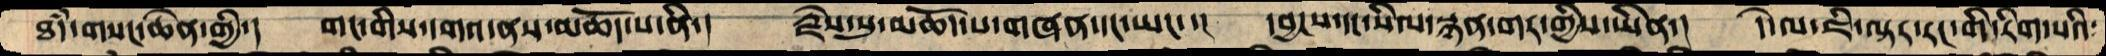ཐདཾ་གསང་ཆེན་གྱི་།  གང་གི་དགའ་ནས་མཆོད་པ་ནི་།  རྗེས་སུ་མཆོད་པ་གཞན་དང་ཡང་་།  དབྱངས་དང་སིལ་སྙན་གར་གྱིས་ཡིན་།  དེ་ལ་ཇི་ལྟར་རང་གི་རིག་པའི་
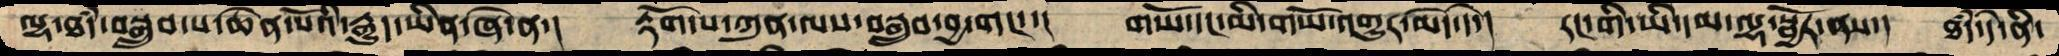ལྷ་ཐདཾ་བསྒྲུབ་པ་ཆེན་པོའི་རྒྱུད་ཡིན་ཞེ་ན་།  རྟོག་པ་ཀུན་ལས་བསྒྲུབ་བྱ་གང་་།  གཡོ་དང་མི་གཡོ་འགྱུར་མེད་དེ་།  རང་གི་ཡི་དམ་ལྷ་སྦྱོར་ནས་།  ཐདཾ་དེ་ནི་
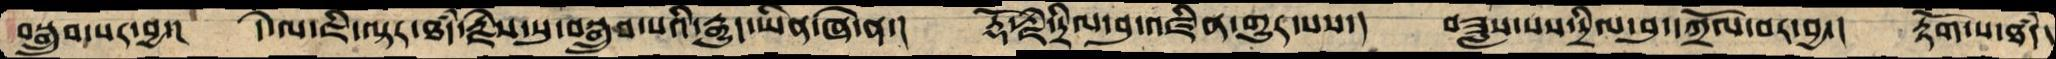བསྒྲུབ་པར་བྱ་།  དེ་ལ་ཇི་ལྟར་ཐདཾ་རྗེས་སུ་བསྒྲུབ་པའི་རྒྱུད་ཡིན་ཞེ་ན་།  རྡོ་རྗེ་དྲིལ་བུ་འཛིན་གྱུར་པས་།  བཟླས་པས་དྲིལ་བུ་དཀྲོལ་བར་བྱ་།  རྟོག་པ་ཐདཾ་
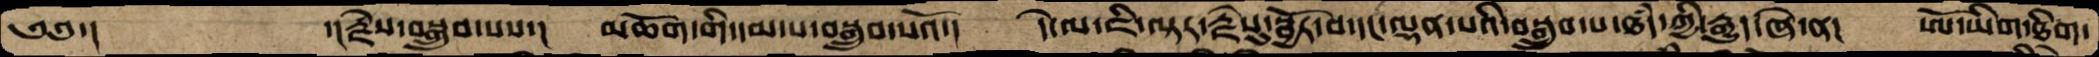༄༅་།    ་།རྗེས་བསྒྲུབ་པས་།  མཆོག་གི་དམ་པ་བསྒྲུབ་པའོ་།  དེ་ལ་ཇི་ལྟར་རྗེསུ་སྦྱོར་བ་དང་ལྡན་པའི་བསྒྲུབ་པ་ཐདཾ་ཀྱི་རྒྱུད་ཞེ་ན་།  ཨོ་ཡིག་ཐིག་
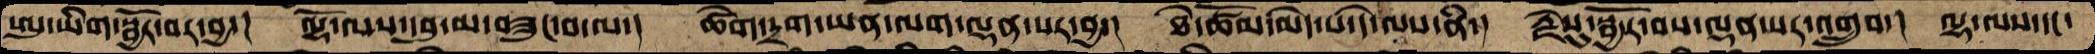ཨུ་ཡིག་སྦྱོར་བར་བྱ་།  ལྷོ་ལས་དབུ་མ་བཟུང་བ་ལ་།  ཚེག་དྲག་ཡན་ལག་ལྡན་པར་བྱ་།  ཐེ་ཚོམ་མེད་པ་དེ་ལས་ནི་།  རྗེསུ་སྦྱོར་བས་ལྡན་པར་འགྲུབ་།  ལྷ་ལས་དང་
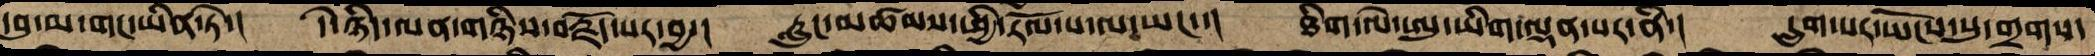དབུ་མ་གང་ཡིན་ཏེ་།  དེ་ཉིད་ལན་གཉིས་བརྗོད་པར་བྱ་།  རླུང་མཚམས་ཕྱི་རོལ་པ་ལ་ཡང་་།  ཐིག་ལེ་ཨུ་ཡིག་ལྡན་པར་ནི་།  དྲུག་པར་ཡོངས་སུ་གྲགས་
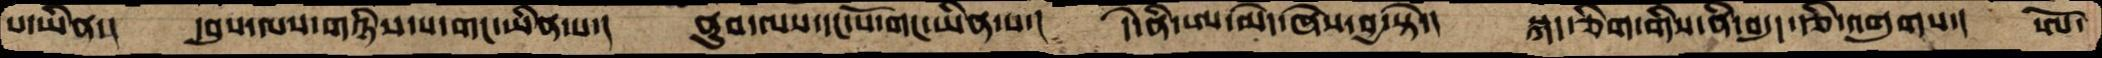པ་ཡིན་།  དབུས་ལས་གཉིས་པ་གང་ཡིན་པ་།  ནུབ་ལས་དང་པོ་གང་ཡིན་པ་།  དེ་ནི་ཨ་མེད་ཞེས་བྱ་སྟེ་།  སྐད་ཅིག་གིས་ནི་བདུད་རྩི་འགུགས་།  ཨོ་
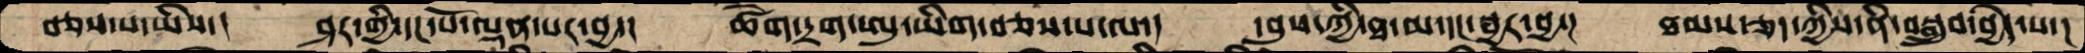བཅས་པ་ཡིས་།  ཤར་གྱི་དང་པོ་ལྡན་པར་བྱ་།  ཚེག་དྲག་ཨུ་ཡིག་བཅས་པ་ལ་།  དབུས་ཀྱི་ཐ་མ་དང་སྦྱར་བྱ་།  ཐམས་ཅད་ཀྱིས་ནི་བསྒྲུབ་བྱེད་པ་།
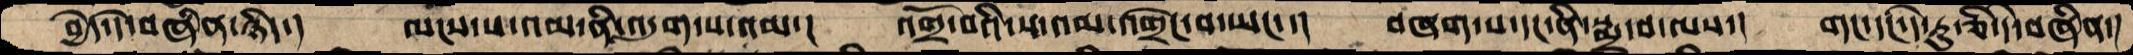བྱེད་དེ་བཞིན་ཉིད་།  ལངས་པ་འམ་ནི་འདུག་པ་འམ་།  འགྲོ་བའི་ས་འམ་འགྲེང་བ་ཡང་་།  བཞག་པ་དང་ནི་སྨྲ་བ་ལས་།  གང་དང་དེ་རུ་ཅི་དེ་བཞིན་།
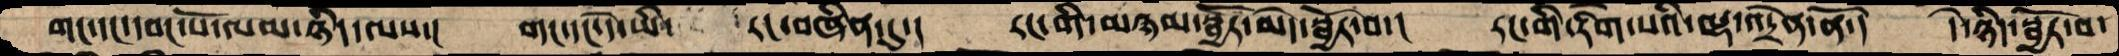གང་དང་དབང་པོ་ལམ་ཉིད་ལས་།  གང་དང་དེ་ཡི་   རང་བཞིན་དུ་།  རང་གི་མཉམ་སྦྱོར་མེད་སྦྱོར་བ་།  རང་གི་རིག་པའི་ལྷ་འདྲེན་ནོ་།  དེ་ཉིད་སྦྱོར་བ་
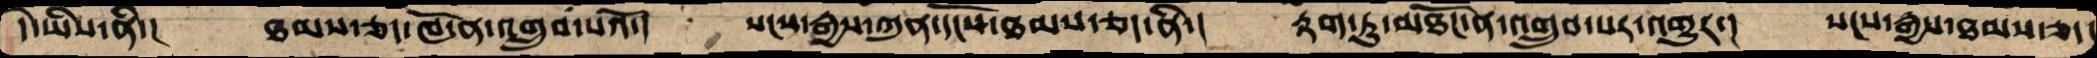དེ་ཡིས་ནི་།  ཐམས་ཅད་ཁོ་ན་འགྲུབ་པའོ་།  སངས་རྒྱས་ཀུན་དངོས་ཐམས་ཅད་ནི་།  རྟག་ཏུ་མཐོང་ན་འགྲུབ་པར་འགྱུར་།  སངས་རྒྱས་ཐམས་ཅད་
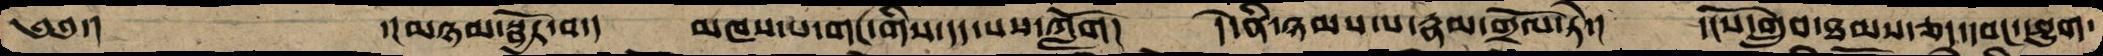༄༅་།     ་།མཉམ་སྦྱོར་བ་།  མཁས་པ་གང་གིས་དད་པས་ཀློག།   དེ་ནི་ཉམས་པ་རྣམ་གྲོལ་ཏེ་།  དངོས་གྲུབ་ཐམས་ཅད་དབང་ཕྱུག་
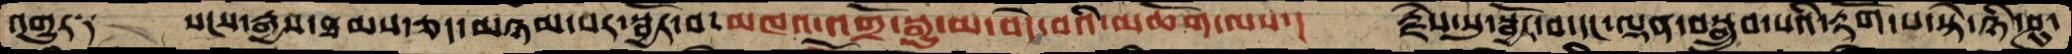འགྱུར༑   སངས་རྒྱས་ཐམས་ཅད་མཉམ་པར་སྦྱོར་བ་མཁའ་འགྲོ་སྒྱུ་མ་བདེ་བའི་མཆོག་ལས་།  རྗེས་སུ་སྦྱོར་བ་དང་ལྡན་བསྒྲུབ་པའི་རྟོག་པ་སྟེ་ཉི་ཤུ་
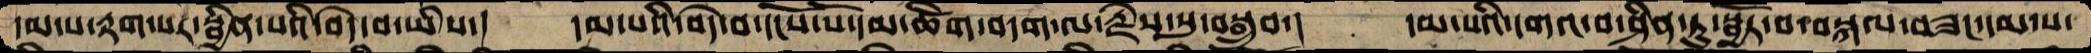དམ་པ་རྟག་པར་སྦྱིན་པའི་བདེ་བ་ཡིས་།  དམ་པའི་བདེ་བ་དངོས་པོ་དམ་ཚིག་བདག་ལ་རྗེས་སུ་བསྒྲུབ་།  དམ་པའི་དགའ་བ་ཤིན་ཏུ་སྦྱོར་བ་བསྐལ་བཟང་དམ་པ་
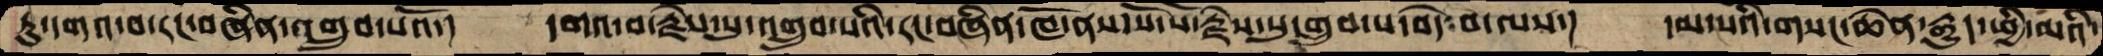ཏུ་དགའ་བ་རང་བཞིན་འགྲུབ་པའོ་།  དགའ་བ་རྗེས་སུ་འགྲུབ་པའི་རང་བཞིན་ཁོ་ནས་སོ་སོ་རྗེས་སུ་གྲུབ་པ་བདེ་བ་ལས་།  དམ་པའི་གསང་ཆེན་རྒྱུད་ཕྱི་མའི་
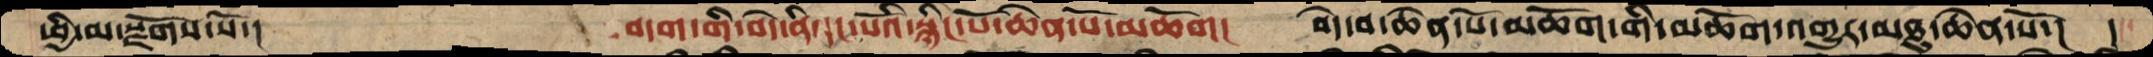ཕྱི་མ་སྫོགས་སོ་།    བདག་གི་བདེ་ནི་དང་པོའི་སྙིང་པོ་ཆེན་པོ་མཆོག།  བདེ་བ་ཆེན་པོ་མཆོག་གི་མཆོག་འགྱུར་མཐུ་ཆེན་པོ་།  །
